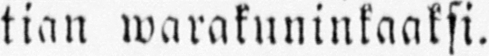tian warakuninkaaksi.
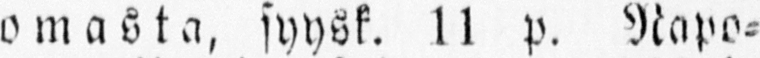Romasta, syysk. 11 p. Napo-
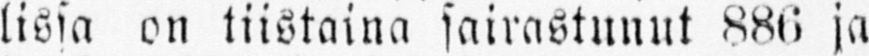lissa on tiistaina sairastunut 886 ja
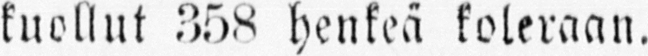kuollut 358 henkeä koleraan.
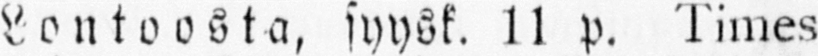Lontoosta, syysk. 11 p. Times
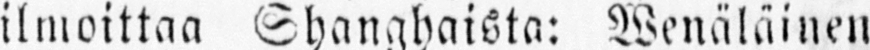ilmoittaa Shanghaista: Wenäläinen
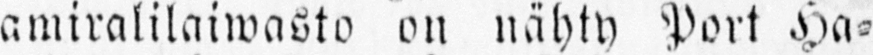amiralilaiwasto on nähty Port Ha-
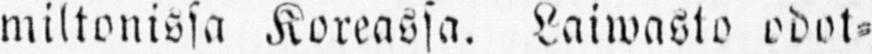miltonissa Koreassa. Laiwasto odot-
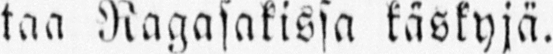taa Ragasakissa käskyjä.
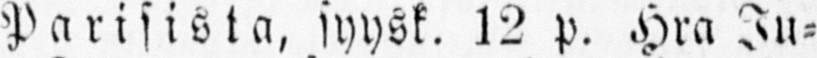Parisista, syysk. 12 p. Hra Ju-
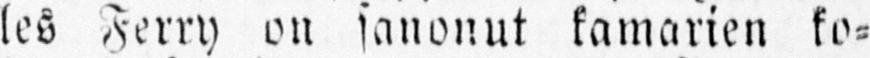les Jerry on sanonut kamarien ko-
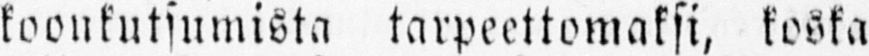koonkutsumista tarpeettomaksi, koska
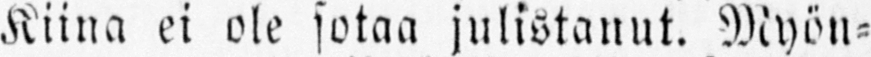Kiina ei ole sotaa julistanut. Myön-
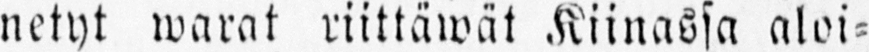netyt warat riittäwät Kiinassa aloi-
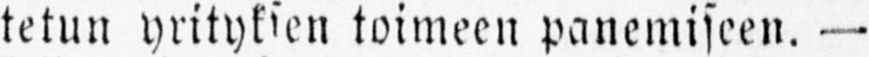tetun yrityksen toimeen panemiseen. -
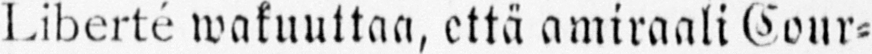Liberté wakuuttaa, että amiraali Cour-
